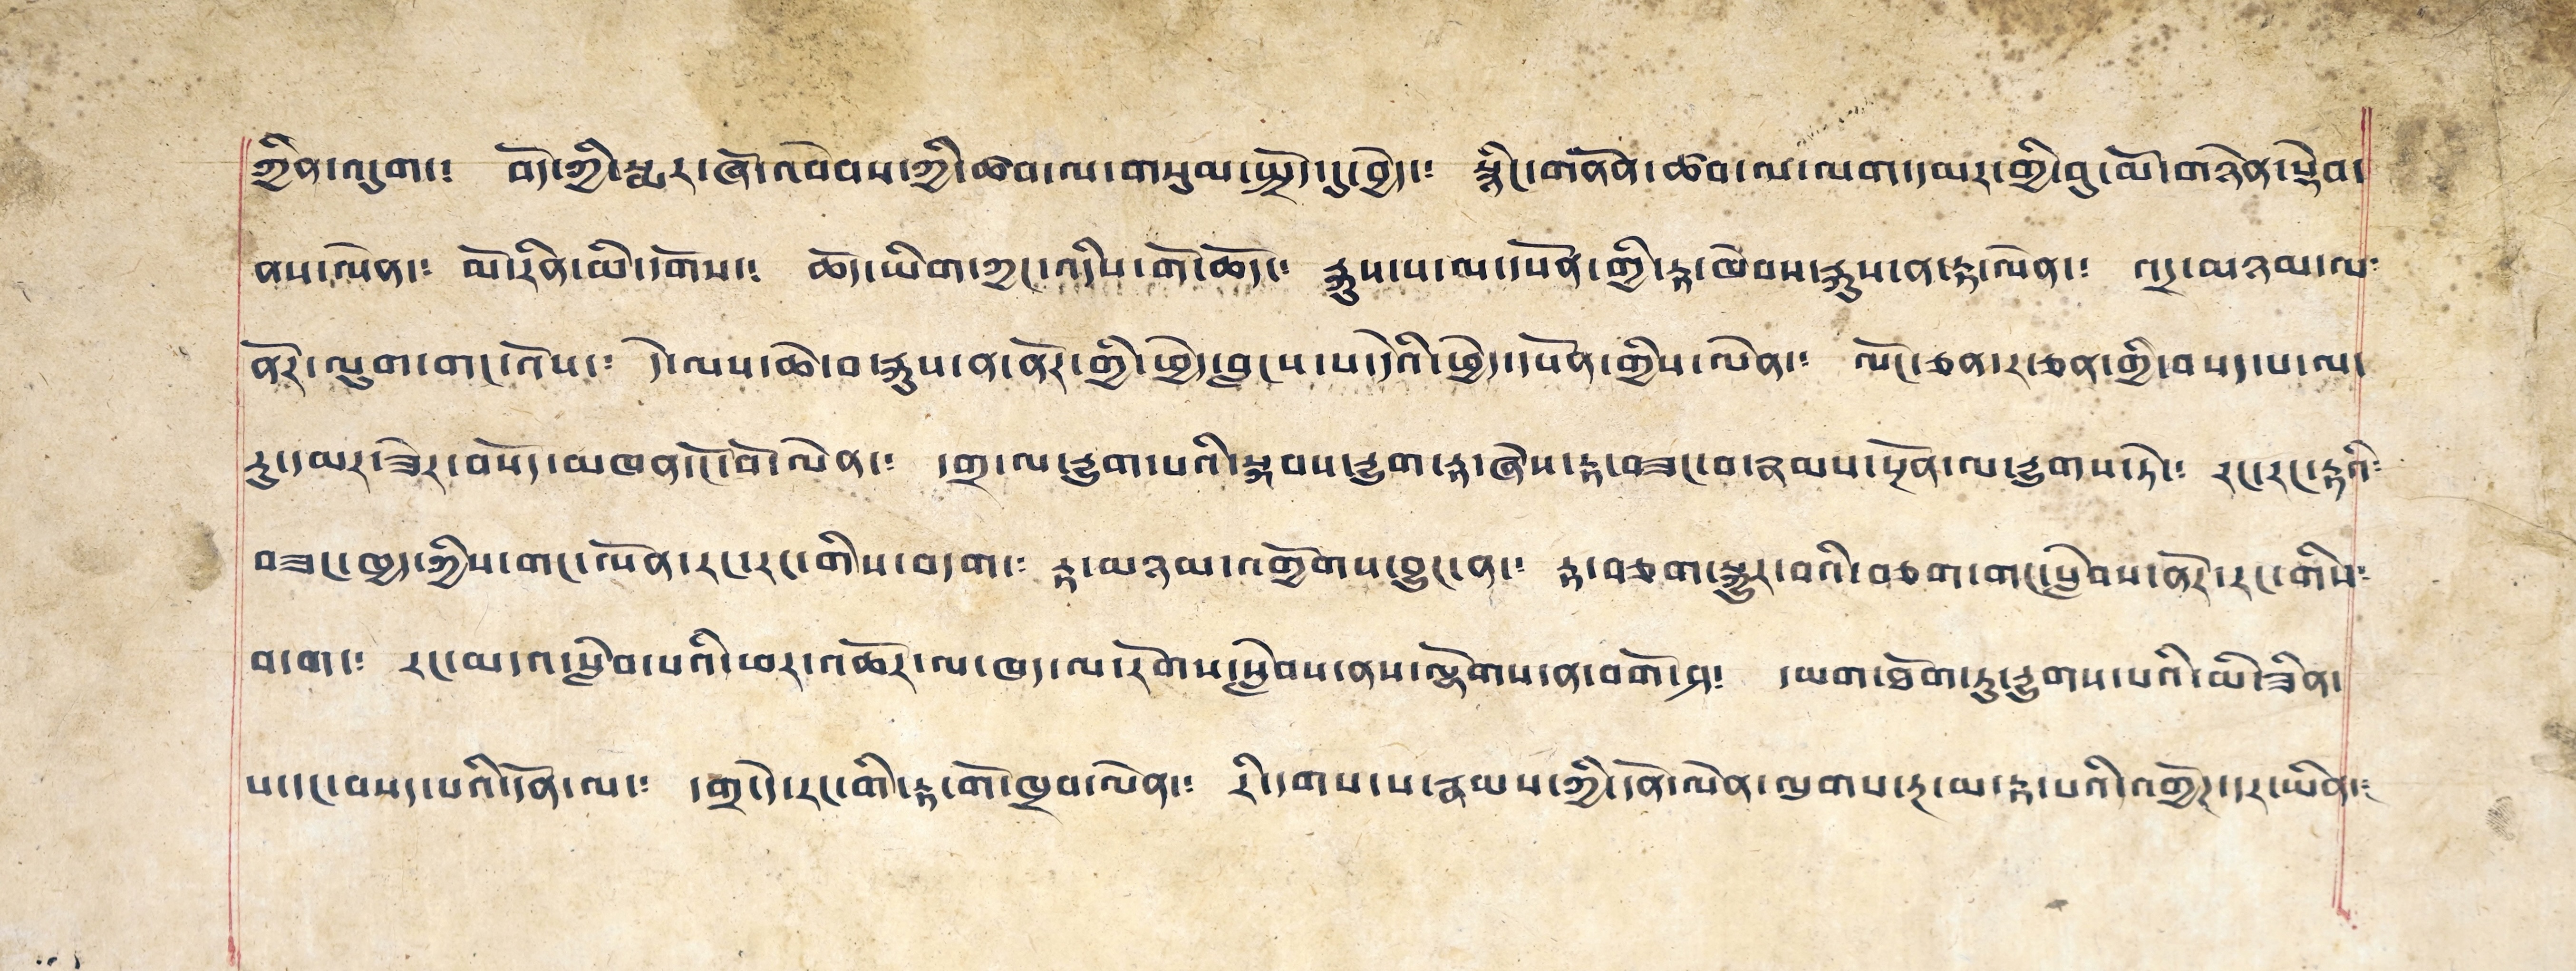ཀྱིན་འདུག་༴ བོད་ཀྱི་སྨར་ཞོ་འབེབས་ཀྱི་ཚབ་ལ་གསུམ་སྤྲོད་དུ་བྱེད་༴ སྙིང་གནོན་ཚབ་ལ་ལག་དམར་གྱི་བུ་མོ་གཉེན་སྡེབ་
ནས་ལེན་༴ མོ་རིན་མི་དགོས་༴ ཆོད་ཡིག་ཀྱང་འདིས་གོ་ཆོད་༴ རྐུས་པ་ལ་དཔོན་གྱི་རྟ་ཁེབས་རྐུས་ན་རྟ་ལེན་༴ འདྲ་མཉམ་ལ༴
ནོར་ལུག་གང་འོས་༴ དེ་ལས་ཆེ་བ་རྐུས་ན་ནོར་གྱི་ཕྱེད་བླངས་པ་དེའི་ཕྱེད་དཔོན་གྱིས་ལེན་༴ ལོང་ཅན་ར་ཅན་གྱི་བསད་པ་ལ་
རུ་དམར་ཟེར་བསོད་མཁན་ངོ་བོ་ལེན་༴ དགྲ་ལ་རྒྱུག་པའི་སྐབས་རྒྱུག་རྟ་ཞེས་རྟ་བཟང་བ་རྣམས་སྔོན་ལ་རྒྱུགས་ཏེ་༴ རང་རང་རྟའི༴
བཟང་ཁྱད་ཀྱིས་གང་ལོན་རང་རང་གིས་བདག་༴ རྟ་མཉམ་འགྱོགས་བྱུང་ན་༴ རྟ་བཅག་སྐྱུར་བའི་བཅག་གང་སླེབས་ནོར་རང་གིས༴
བདག་༴ རང་མདའ་སླེབ་པའི་ཕར་འཆོར་ལ་ཁད་ལ་རོགས་སླེབས་ནས་ལྷོགས་ན་བགོ་ཤ་༴ དམག་ཐོག་ཏུ་རྒྱུགས་པའི་མི་ཟིན་
པ་དང་བསད་པའི་དོན་ལ་༴ དགྲ་དེ་རང་གི་རྟ་གོ་ཁྲབ་ལེན་༴ རི་དགས་པ་རྣམས་ཀྱི་དོན་ལེན་ལུགས་རྔ་མ་རྟ་པའི་འགྱོཊ་དར་ཡིན་༴
